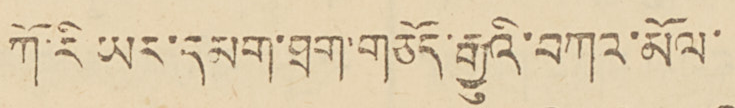ཀོ་རི ཡར་དམག་ཐག་གཅོད་རྒྱུའི་བཀའ་མོལ་
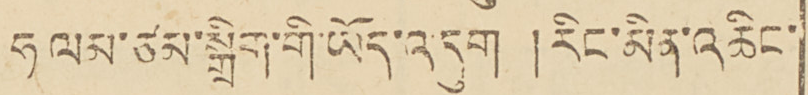ཧ ལམ་ཙམ་སྒྲིག་གི་ཡོད་འདུག།།རིང་མིན་འཆིང་
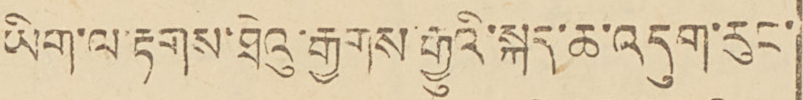ཡིག་ལ་རྟགས་ཐེའུ་རྒྱགས་རྒྱུའི་སྐད་ཆ་འདུག་རུང་
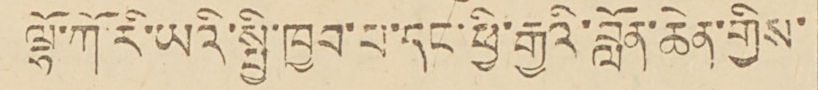ལྷོ་ཀོ་རི་ཡའི་སྤྱི་ཁྱབ་པ་དང་ཕྱི་རྒྱའི་བློན་ཆེན་གྱིས་
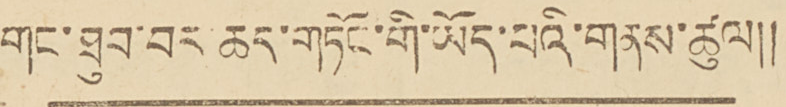གང་ཐུབ་བར ཆད་གཏོང་གི་ཡོད་པའི་གནས་ཚུལ།།
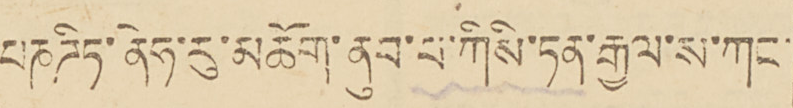པཎཌིཏ་ནེཧ་རུ་མཆོག་ནུབ་པ་ཀིསི་ཏན་རྒྱལ་ས་ཀང་
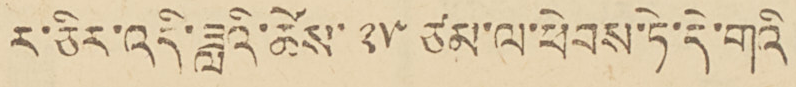ར་ཅིར་འདི་ཟླའི་ཚེས་ ༢༥ ཙམ་ལ་ཕེབས་ཏེ་དེ་གའི
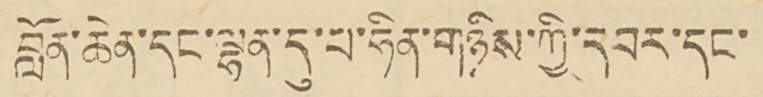བློན་ཆེན་དང་ལྷན་དུ་པ་ཧིན་གཉིས་ཀྱི་དབར་དང་
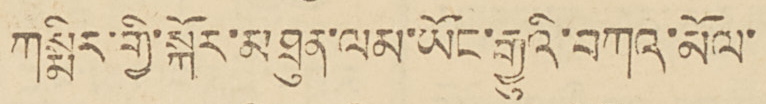ཀསྨིར་གྱི་སྐོར་མཐུན་ལམ་ཡོང་རྒྱུའི་བཀའ་མོལ་
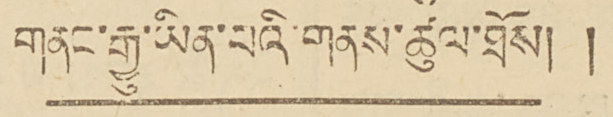གནང་རྒྱུ་ཡིན་པའི་གནས་ཚུལ་ཐོས།།
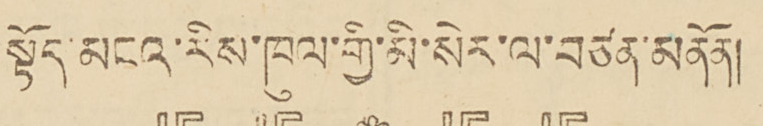སྟོད་མངའ་རིས་ཁུལ་གྱི་མི་སེར་ལ་བཙན་མནོན།
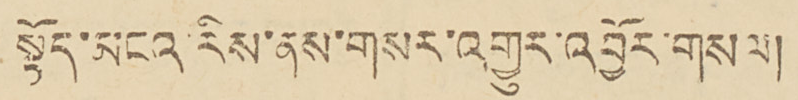སྟོད་མངའ་རིས་ནས་གསར་འགྱུར་འབྱོར་གསལ།
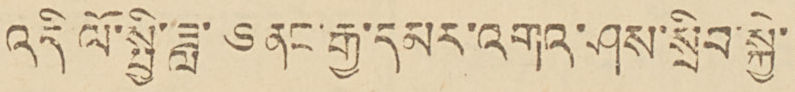འདི་ལོ་སྤྱི་ཟླ་༦ནང་རྒྱ་དམར་འགའ་ཤས་སྲིབ་སྐྱེ་
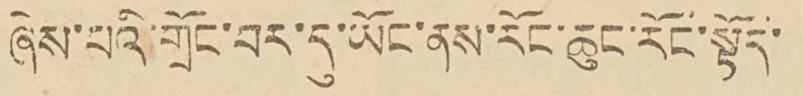ཞེས་པའི་གྲོང་བར་དུ་ཡོང་ནས་རོལ་ཆུང་རོང་སྟོད་
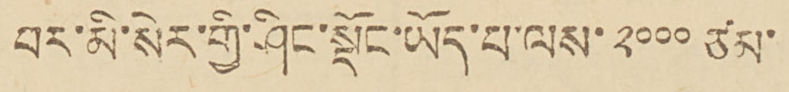བར་མི་སེར་གྱི་ཤིང་སྡོང་ཡོད་པ་ལས་༢༠༠༠ཙམ་
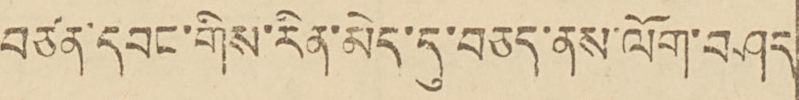བཙན་དབང་གིས་རིན་མེད་དུ་བཅད་ནས་ལོག་བཤད
